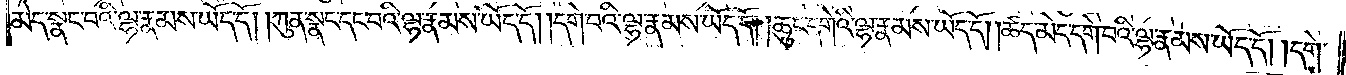མེད་སྣང་བའི་ལྷ་རྣམས་ཡོད་དོ། །ཀུན་སྣང་དང་བའི་ལྷ་རྣམས་ཡོད་དོ། །དགེ་བའི་ལྷ་རྣམས་ཡོད་དོ། །ཆུང་དགེའི་ལྷ་རྣམས་ཡོད་དོ། །ཚད་མེད་དགེ་བའི་ལྷ་རྣམས་ཡོད་དོ། །དགེ་
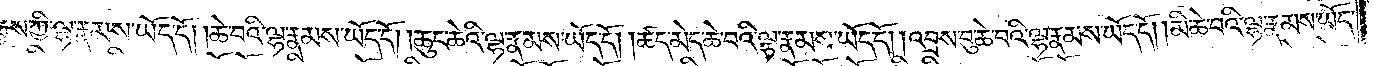རྒྱས་ཀྱི་ལྷ་རྣམས་ཡོད་དོ། །ཆེ་བའི་ལྷ་རྣམས་ཡོད་དོ། །ཆུང་ཆེའི་ལྷ་རྣམས་ཡོད་དོ། །ཚད་མེད་ཆེ་བའི་ལྷ་རྣམས་ཡོད་དོ། །འབྲས་བུ་ཆེ་བའི་ལྷ་རྣམས་ཡོད་དོ། །མི་ཆེ་བའི་ལྷ་རྣམས་ཡོད་
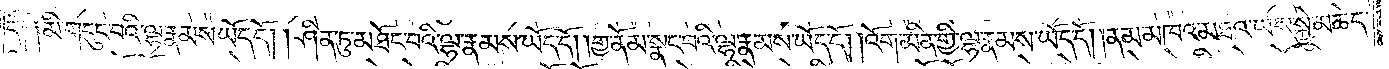དོ༑ ༑མི་གདུང་བའི་ལྷ་རྣམས་ཡོད་དོ། །ཤིན་ཏུ་མཐོང་བའི་ལྷ་རྣམས་ཡོད་དོ། །གྱ་ནོམ་སྣང་བའི་ལྷ་རྣམས་ཡོད་དོ། །འོག་མིན་གྱི་ལྷ་རྣམས་ཡོད་དོ། །ནམ་མཁའ་མཐའ་ཡས་སྐྱེ་མཆེད་
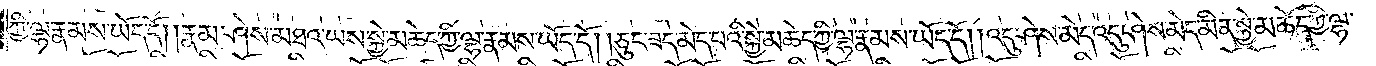ཀྱི་ལྷ་རྣམས་ཡོད་དོ། །རྣམ་ཤེས་མཐའ་ཡས་སྐྱེ་མཆེད་ཀྱི་ལྷ་རྣམས་ཡོད་དོ། །ཅུང་ཟད་མེད་པའི་སྐྱེ་མཆེད་ཀྱི་ལྷ་རྣམས་ཡོད་དོ། །འདུ་ཤེས་མེད་འདུ་ཤེས་མེད་མིན་སྐྱེ་མཆེད་ཀྱི་ལྷ་
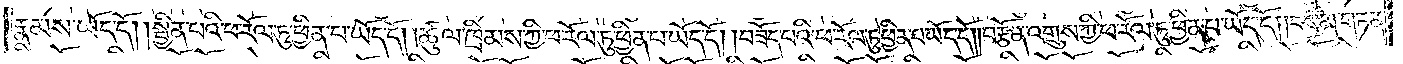རྣམས་ཡོད་དོ། །སྦྱིན་པའི་ཕ་རོལ་ཏུ་ཕྱིན་པ་ཡོད་དོ། །ཚུལ་ཁྲིམས་ཀྱི་ཕ་རོལ་ཏུ་ཕྱིན་པ་ཡོད་དོ། །བཟོད་པའི་ཕ་རོལ་ཏུ་ཕྱིན་པ་ཡོད་དོ། །བརྩོན་འགྲུས་ཀྱི་ཕ་རོལ་ཏུ་ཕྱིན་པ་ཡོད་དོ། །བསམ་གཏན་
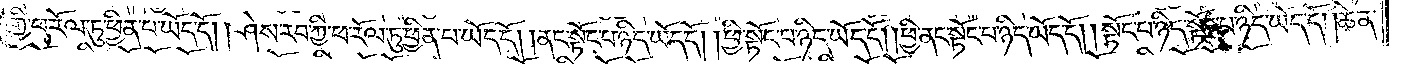གྱི་ཕ་རོལ་ཏུ་ཕྱིན་པ་ཡོད་དོ། །ཤེས་རབ་ཀྱི་ཕ་རོལ་ཏུ་ཕྱིན་པ་ཡོད་དོ། །ནང་སྟོང་པ་ཉིད་ཡོད་དོ། །ཕྱི་སྟོང་པ་ཉིད་ཡོད་དོ། །ཕྱི་ནང་སྟོང་པ་ཉིད་ཡོད་དོ། །སྟོང་པ་ཉིད་སྟོང་པ་ཉིད་ཡོད་དོ། །ཆེན་
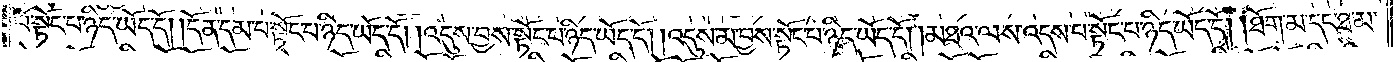པོ་སྟོང་པ་ཉིད་ཡོད་དོ། །དོན་དམ་པ་སྟོང་པ་ཉིད་ཡོད་དོ། །འདུས་བྱས་སྟོང་པ་ཉིད་ཡོད་དོ། །འདུས་མ་བྱས་སྟོང་པ་ཉིད་ཡོད་དོ། །མཐའ་ལས་འདས་པ་སྟོང་པ་ཉིད་ཡོད་དོ། །ཐོག་མ་དང་ཐ་མ་
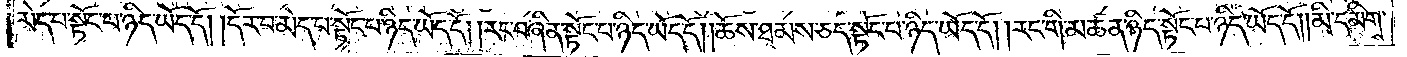མེད་པ་སྟོང་པ་ཉིད་ཡོད་དོ། །དོར་བ་མེད་པ་སྟོང་པ་ཉིད་ཡོད་དོ། །རང་བཞིན་སྟོང་པ་ཉིད་ཡོད་དོ། །ཆོས་ཐམས་ཅད་སྟོང་པ་ཉིད་ཡོད་དོ། །རང་གི་མཚན་ཉིད་སྟོང་པ་ཉིད་ཡོད་དོ། །མི་དམིགས་
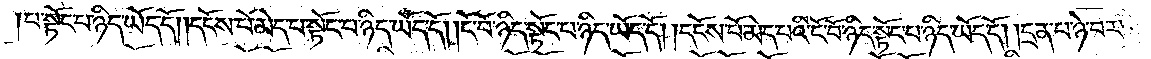པ་སྟོང་པ་ཉིད་ཡོད་དོ། །དངོས་པོ་མེད་པ་སྟོང་པ་ཉིད་ཡོད་དོ། །ངོ་བོ་ཉིད་སྟོང་པ་ཉིད་ཡོད་དོ། །དངོས་པོ་མེད་པའི་ངོ་བོ་ཉིད་སྟོང་པ་ཉིད་ཡོད་དོ། །དྲན་པ་ཉེ་བར་
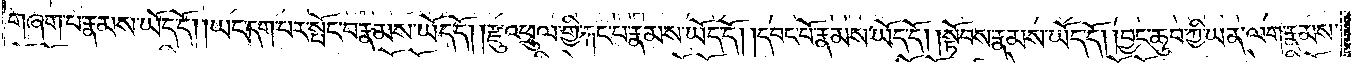གཞག་པ་རྣམས་ཡོད་དོ། །ཡང་དག་པར་སྤོང་བ་རྣམས་ཡོད་དོ། །རྫུ་འཕྲུལ་གྱི་རྐང་པ་རྣམས་ཡོད་དོ། །དབང་པོ་རྣམས་ཡོད་དོ། །སྟོབས་རྣམས་ཡོད་དོ། །བྱང་ཆུབ་ཀྱི་ཡན་ལག་རྣམས་
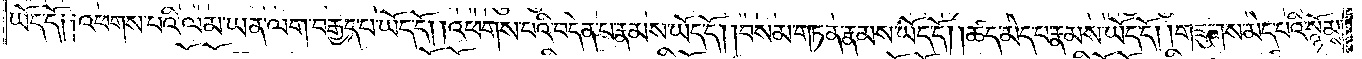ཡོད་དོ༑ ༑འཕགས་པའི་ལམ་ཡན་ལག་བརྒྱད་པ་ཡོད་དོ། །འཕགས་པའི་བདེན་པ་རྣམས་ཡོད་དོ། །བསམ་གཏན་རྣམས་ཡོད་དོ། །ཚད་མེད་པ་རྣམས་ཡོད་དོ། །གཟུགས་མེད་པའི་སྙོམས་
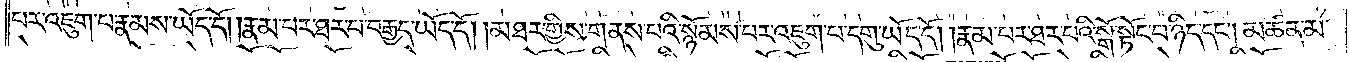པར་འཇུག་པ་རྣམས་ཡོད་དོ། །རྣམ་པར་ཐར་པ་བརྒྱད་ཡོད་དོ། །མཐར་གྱིས་གནས་པའི་སྙོམས་པར་འཇུག་པ་དགུ་ཡོད་དོ། །རྣམ་པར་ཐར་པའི་སྒོ་སྟོང་པ་ཉིད་དང༌། མཚན་མ་
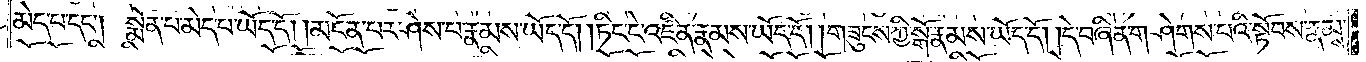མེད་པ་དང༌། སྨོན་པ་མེད་པ་ཡོད་དོ། །མངོན་པར་ཤེས་པ་རྣམས་ཡོད་དོ། །ཏིང་ངེ་འཛིན་རྣམས་ཡོད་དོ། །གཟུངས་ཀྱི་སྒོ་རྣམས་ཡོད་དོ། །དེ་བཞིན་གཤེགས་པའི་སྟོབས་རྣམས་
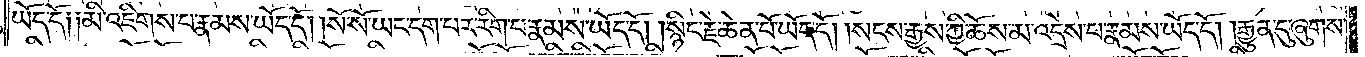ཡོད་དོ༑ ༑མི་འཇིགས་པ་རྣམས་ཡོད་དོ། །སོ་སོ་ཡང་དག་པར་རིགས་པ་རྣམས་ཡོད་དོ། །སྙིང་རྗེ་ཆེན་པོ་ཡོད་དོ། །སངས་རྒྱས་ཀྱི་ཆོས་མ་འདྲེས་པ་རྣམས་ཡོད་དོ། །རྒྱུན་དུ་ཞུགས་
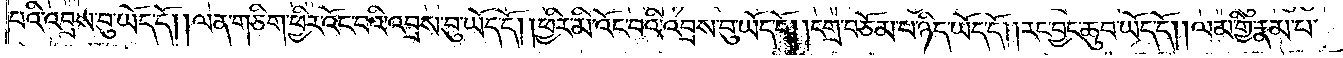པའི་འབྲས་བུ་ཡོད་དོ། །ལན་གཅིག་ཕྱིར་འོང་བའི་འབྲས་བུ་ཡོད་དོ། །ཕྱིར་མི་འོང་བའི་འབྲས་བུ་ཡོད་དོ། །དགྲ་བཅོམ་པ་ཉིད་ཡོད་དོ། །རང་བྱང་ཆུབ་ཡོད་དོ། །ལམ་གྱི་རྣམ་པ་
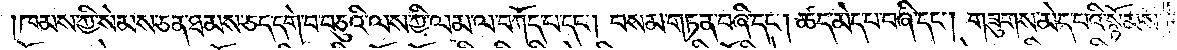ཁམས་ཀྱི་སེམས་ཅན་ཐམས་ཅད་དགེ་བ་བཅུའི་ལས་ཀྱི་ལམ་ལ་བཀོད་པ་དང༌། བསམ་གཏན་བཞི་དང༌། ཚད་མེད་པ་བཞི་དང༌། གཟུགས་མེད་པའི་སྙོམས་
